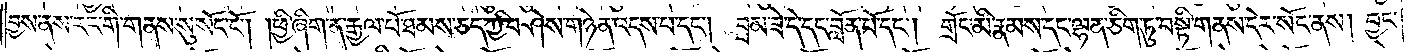བྱས་ནས་རང་གི་གནས་སུ་སོང་ངོ༌། །ཕྱི་ཞིག་ན་རྒྱལ་པོ་ཐམས་ཅད་ཀྱི་བཤེས་གཉེན་འདས་པ་དང༌། བྲམ་ཟེ་དེ་དང་བློན་པོ་དང༌། གྲོང་མི་རྣམས་དང་ལྷན་ཅིག་ཏུ་བསྟི་གནས་དེར་སོང་ནས། བྱང་
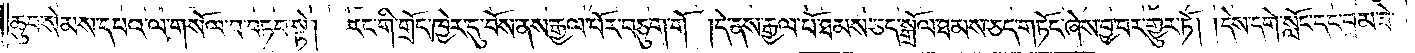ཆུབ་སེམས་དཔའ་ལ་གསོལ་བ་བཏབ་སྟེ།  རང་གི་གྲོང་ཁྱེར་དུ་བོས་ནས་རྒྱལ་པོར་བཅུག་གོ །དེ་ནས་རྒྱལ་པོ་ཐམས་ཅད་སྒྲོལ་ཐམས་ཅད་གཏོང་ཞེས་བྱ་བར་གྱུར་ཏོ། །དེས་དགེ་སློང་དང་བྲམ་ཟེ་
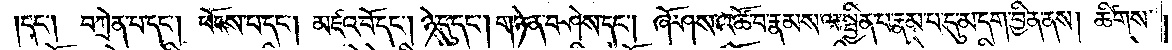དང༌། བཀྲེན་པ་དང༌། ཕོངས་པ་དང༌། མཛའ་བོ་དང༌། ཉེ་དུ་དང༌། གཉེན་བཤེས་དང༌། ཞོ་ཤས་འཚོ་བ་རྣམས་ལ་སྦྱིན་པ་རྣམ་པ་དུ་མ་དག་བྱིན་ནས། ཚིགས་
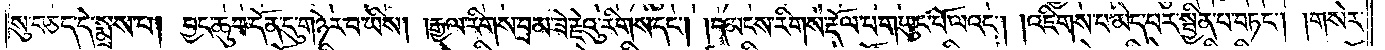སུ་བཅད་དེ་སྨྲས་པ། བྱང་ཆུབ་དོན་དུ་གཉེར་བ་ཡིས། །རྒྱལ་རིགས་བྲམ་ཟེ་རྗེའུ་རིགས་དང༌། །དམངས་རིགས་རྡོལ་པ་གཡུང་པོ་ལའང༌། །འཇིགས་པ་མེད་པར་སྦྱིན་པ་བཏང༌། །གསེར་
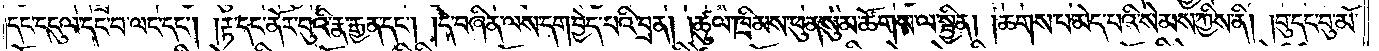དང་དངུལ་དང་བ་ལང་དང༌། །རྟ་དང་ནོར་བུའི་རྣ་རྒྱན་དང༌། །དེ་བཞིན་ལས་དག་བྱེད་པའི་བྲན། །ཚུལ་ཁྲིམས་ཕུན་སུམ་ཚོགས་ལ་སྦྱིན། །ཆགས་པ་མེད་པའི་སེམས་ཀྱིས་ནི། །བུ་དང་བུ་མོ་
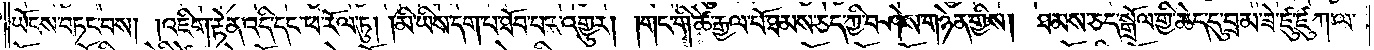ཡོངས་བཏང་བས། །འཇིག་རྟེན་འདི་དང་ཕ་རོལ་ཏུ། །མི་ཡིས་དག་པ་ཐོབ་པར་འགྱུར། །གང་གི་ཚེ་རྒྱལ་པོ་ཐམས་ཅད་ཀྱི་བཤེས་གཉེན་གྱིས། ཐམས་ཅད་སྒྲོལ་གྱི་ཆེད་དུ་བྲམ་ཟེ་ཛུ་ཛུ་ཀ་ལ་
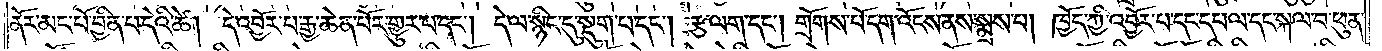ནོར་མང་པོ་བྱིན་པ་དེའི་ཚེ། དེ་འབྱོར་པ་རྒྱ་ཆེན་པོར་གྱུར་པ་དང༌། དེ་ལ་སྙིང་དུ་སྡུག་པ་དང༌། རྩ་ལག་དང༌། གྲོགས་པོ་དག་འོངས་ནས་སྨྲས་པ། ཁྱོད་ཀྱི་འབྱོར་པ་དང་དཔལ་དང་སྐལ་བ་ཕུན་
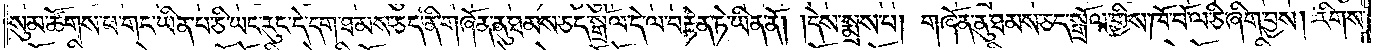སུམ་ཚོགས་པ་གང་ཡིན་པ་ཅི་ཡང་རུང་དེ་དག་ཐམས་ཅད་ནི་གཞོན་ནུ་ཐམས་ཅད་སྒྲོལ་དེ་ལ་བརྟེན་ཏེ་ཡིན་ནོ། །དེས་སྨྲས་པ། གཞོན་ནུ་ཐམས་ཅད་སྒྲོལ་གྱིས་ཁོ་བོ་ལ་ཅི་ཞིག་བྱས། རིགས་
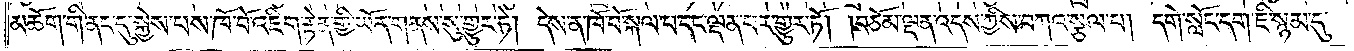མཆོག་གི་ནང་དུ་སྐྱེས་པས་ཁོ་བོ་འཇིག་རྟེན་གྱི་ཡོན་གནས་སུ་གྱུར་ཏེ། དེས་ན་ཁོ་བོ་སྐལ་པ་དང་ལྡན་པར་གྱུར་ཏོ། །བཅོམ་ལྡན་འདས་ཀྱིས་བཀའ་སྩལ་པ། དགེ་སློང་དག་ཇི་སྙམ་དུ་
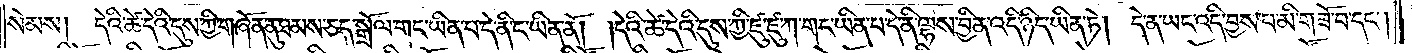སེམས། དེའི་ཚེ་དེའི་དུས་ཀྱི་གཞོན་ནུ་ཐམས་ཅད་སྒྲོལ་གང་ཡིན་པ་དེ་ནི་ང་ཡིན་ནོ།  །དེའི་ཚེ་དེའི་དུས་ཀྱི་ཛུ་ཛུ་ཀ་གང་ཡིན་པ་དེ་ནི་ལྷས་བྱིན་འདི་ཉིད་ཡིན་ཏེ། དེ་ན་ཡང་འདི་བྱས་པ་མི་གཟོ་བ་དང༌།
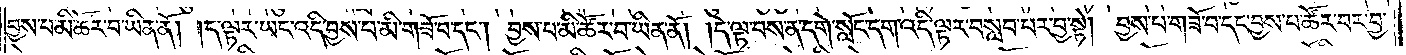བྱས་པ་མི་ཚོར་བ་ཡིན་ནོ། །ད་ལྟར་ཡང་འདི་བྱས་པ་མི་གཟོ་བ་དང༌། བྱས་པ་མི་ཚོར་བ་ཡིན་ནོ། །དེ་ལྟ་བས་ན་དགེ་སློང་དག་འདི་ལྟར་བསླབ་པར་བྱ་སྟེ། བྱས་པ་གཟོ་བ་དང་བྱས་པ་ཚོར་བར་བྱ་
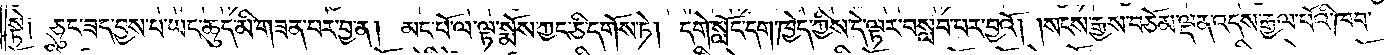སྟེ། ཅུང་ཟད་བྱས་པ་ཡང་ཆུད་མི་གཟན་པར་བྱ་ན། མང་པོ་ལ་ལྟ་སྨོས་ཀྱང་ཅི་དགོས་ཏེ། དགེ་སློང་དག་ཁྱེད་ཀྱིས་དེ་ལྟར་བསླབ་པར་བྱའོ། །སངས་རྒྱས་བཅོམ་ལྡན་འདས་རྒྱལ་པོའི་ཁབ་
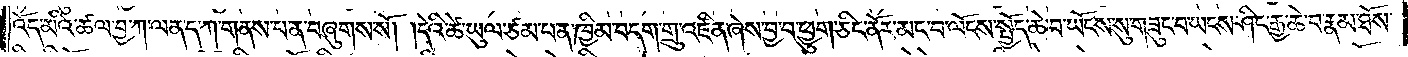འོད་མའི་ཚལ་བྱ་ཀ་ལན་ད་ཀ་གནས་པ་ན་བཞུགས་སོ། །དེའི་ཚེ་ཡུལ་ཙམ་པ་ན་ཁྱིམ་བདག་གྲུ་འཛིན་ཞེས་བྱ་བ་ཕྱུག་ཅིང་ནོར་མང་བ་ལོངས་སྤྱོད་ཆེ་བ་ཡོངས་སུ་གཟུང་བ་ཡངས་ཤིང་རྒྱ་ཆེ་བ་རྣམ་ཐོས་
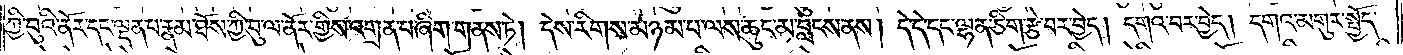ཀྱི་བུའི་ནོར་དང་ལྡན་པ་རྣམ་ཐོས་ཀྱི་བུ་ལ་ནོར་གྱིས་འགྲན་པ་ཞིག་གནས་ཏེ། དེས་རིགས་མཉམ་པ་ལས་ཆུང་མ་བླངས་ནས། དེ་དེ་དང་ལྷན་ཅིག་རྩེ་བར་བྱེད། དགའ་བར་བྱེད། དགའ་མགུར་སྤྱོད་
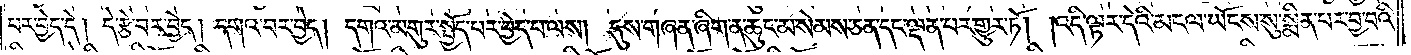པར་བྱེད་དེ། དེ་རྩེ་བར་བྱེད། དགའ་བར་བྱེད། དགའ་མགུར་སྤྱོད་པར་བྱེད་པ་ལས། དུས་གཞན་ཞིག་ན་ཆུང་མ་སེམས་ཅན་དང་ལྡན་པར་གྱུར་ཏོ། །འདི་ལྟར་དེའི་མངལ་ཡོངས་སུ་སྨིན་པར་བྱ་བའི་
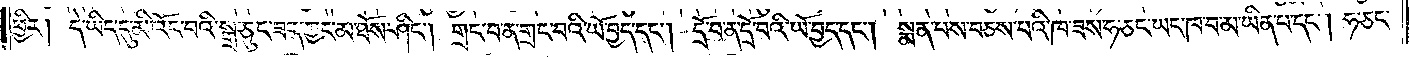ཕྱིར། དེ་ཡིད་དུ་མི་འོང་བའི་སྒྲ་ཅུང་ཟད་ཀྱང་མ་ཐོས་ཤིང༌། གྲང་བ་ན་གྲང་བའི་ཡོ་བྱད་དང༌། དྲོ་བ་ན་དྲོ་བའི་ཡོ་བྱད་དང༌། སྨན་པས་བཅས་པའི་ཁ་ཟས་ཧ་ཅང་ཡང་ཁ་བ་མ་ཡིན་པ་དང༌། ཧ་ཅང་
